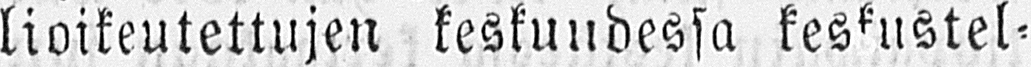lioikeutettujen keskuudessa keskustel-
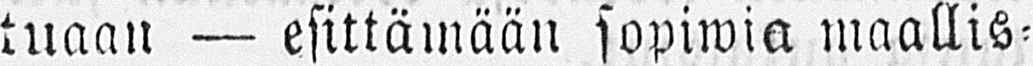tuaan — esittämään sopiwia maallis-
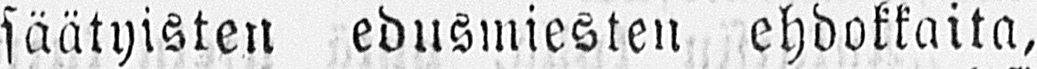säätyisten edusmiesten ehdokkaita,
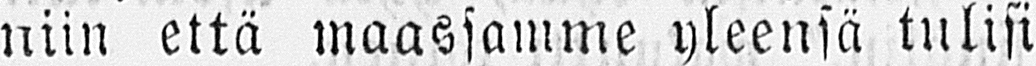niin että maassamme yleensä tulisi
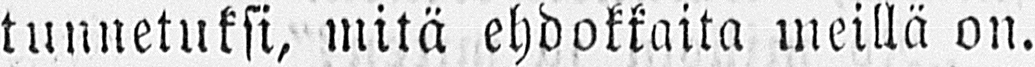tunnetuksi, mitä ehdokkaita meillä on.
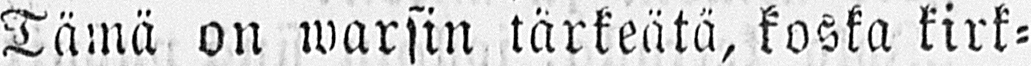Tämä on warsin tärkeätä, koska kirk-
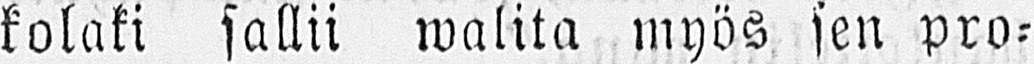kolaki sallii walita myös sen pro-
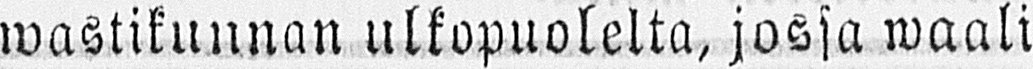wastikunnan ulkopuolelta, jossa waali
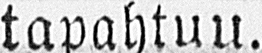tapahtuu.
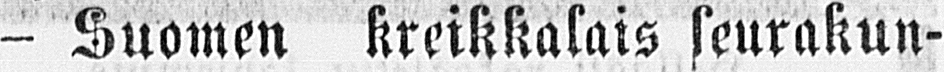- Suomen kreikkalais seurakun-
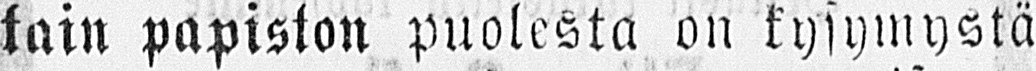tain papiston puolesta on kysymystä
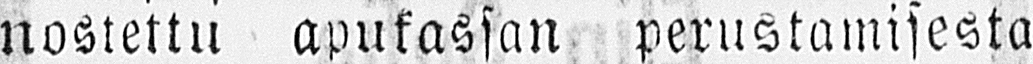nostettu apukassan perustamisesta
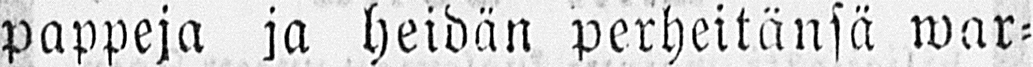pappeja ja heidän perheitänsä war-
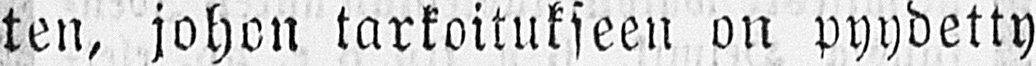ten, johon tarkoitukseen on pyydetty
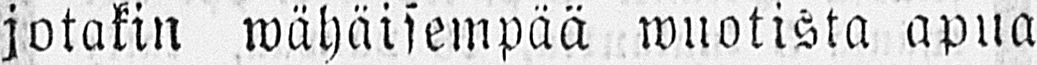jotakin wähäisempää wuotista apua
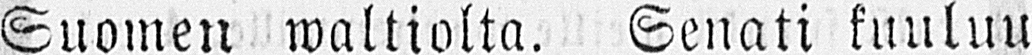Suomen waltiolta. Senati kuuluu
